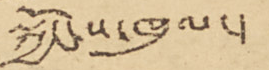སྐྱོང་ས་ཁུལ་།
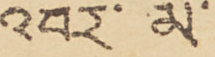འབར་མ་
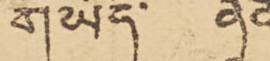གཡོད་ ནཱན་
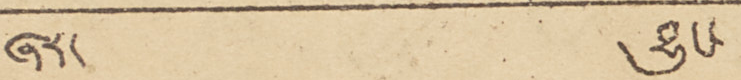ཞར་ བྱུང་
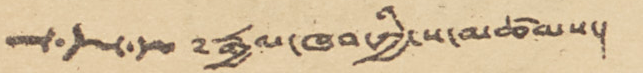༸རྒྱལ་ཁབ་ཀྱི་ས་མཚམས་།
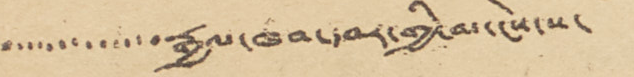རྒྱལ་ཁབ་དབར་གྱི་མ་ངེས་ས་
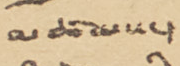མཚམས་།
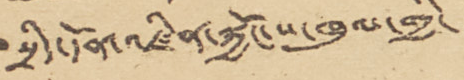སྲིད་དོན་འཛིན་སྐྱོང་ས་ཁུལ་གྱི་
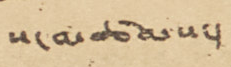ས་མཚམས་།
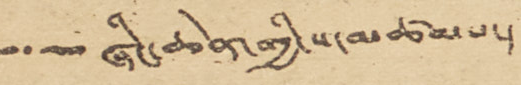ཞིང་ཆེན་གྱི་ས་མཚམས་།
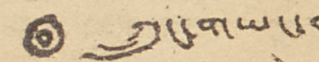ཀྲུང་གཡང་ནས་ཐད་ཀར་དོ་
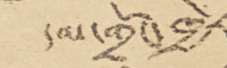དམ་གྲོང་ཁྱེར་།
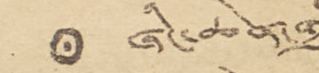ཞིང་ཆེན་གྱི་གཙོ་བོའི་
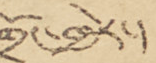གྲོང་ཁྱེར་།
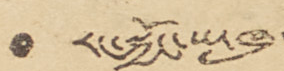རང་སྐྱོང་ས་ཁུལ་གྱི་གཙོ་བོའི་
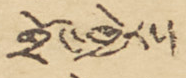གྲོང་ཁྱེར་།
